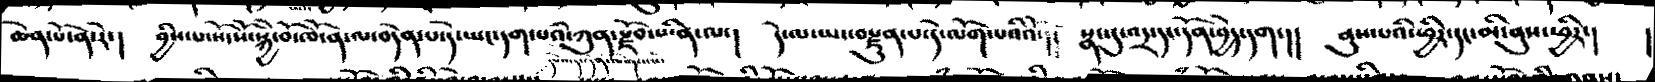ཆེན་པོ་ན་རེ་།    བྱིས་པ་སོ་སོ་སྐྱེ་བོ་ཁོ་ན་ལ་བདེན་པ་དེ་ཡང་དག་པའི་ཀུན་རྫོབ་ཡིན་ལ་།  དེ་ལ་ཡང་བརྫུན་པ་དེ་ལོག་པའིའོ་།།    སྣང་དུ་འདྲ་དང་དོན་བྱེད་དག་།   ནུས་པའི་ཕྱིར་དང་མི་ནུས་ཕྱིར་།     །
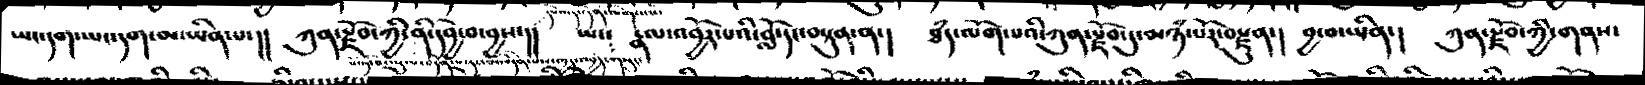ཡང་དག་ཡང་དག་མ་ཡིན་པ་།།  ཀུན་རྫོབ་ཀྱི་ནི་དབྱེ་བ་བྱས་།།    ཡང༴    རྣལ་འབྱོར་པའི་བློ་དང་བསྟུན་ན་།   ཐཾད་ལོག་པའི་ཀུན་རྗོབ་དུ་མཉཾ་པོར་བརྫུན་།   བྱ་བ་ཡིན་།   ཀུན་རྫོབ་ཀྱི་གནས་
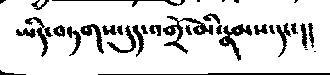ཡིད་བཏགས་དུད་འགྲོ་མི་རྣམས་དང་།།
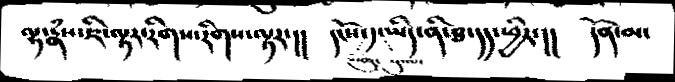ལྷ་རྣཾས་ཇི་ལྟར་རིགས་རིགས་ལྟར་།།  དངོས་༡་ཡིད་ནི་ཐ་དད་ཕྱིར་།།   དོན་མ་
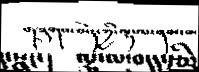དུ་སྣང་།   ལྷ་ལ་བདུད་རྩིར
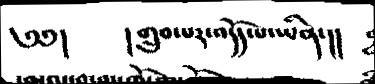༄༅།     །གྲུབ་པར་འདོད་པ་ཡིན་།།
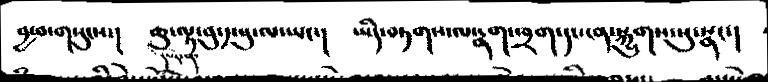བྱ་བ་གསུངས་།  ཆུ་ལྟ་བུ་༡་སུ་ལ་ཡང་།   ཡིད་བཏགས་ལ་རྣག་ཁྲག་དང་ངན་སྐྱུགས་སུ་སྣང་།
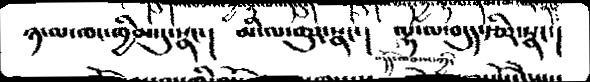ཉ་ལ་ཁང་ཁྱིམ་དུ་སྣང་།   མི་ལ་ཆུར་སྣང་།   ལྷ་ལ་བདུད་རྩིར་སྣང་།
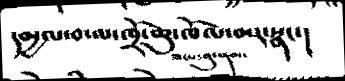དམྱལ་བ་ལ་ཁྲོ་ཆུ་ཁོལ་མར་སྣང་།
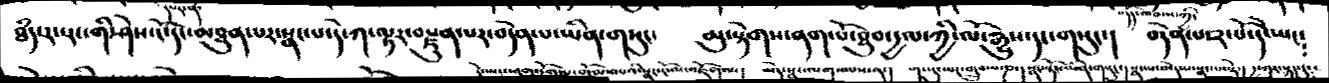ཐཾད་རང་རང་གི་ཤེས་ངོ་དང་མཐུན་པར་སྣང་པ་དེ་ཀ་ལྟར་བརྫུན་པར་བདེན་པ་ཡིན་གསུང་   མུ་སྟེགས་ནག་པོ་ཐུབ་དྱལ་ཀྱི་ལོ་རྒྱུས་དང་གསུང་།   བདེན་པ་༢་པོ་དེ་ཡང༴
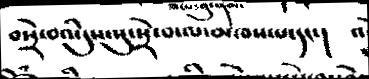བསྲེ་བའི་དུས་སུ་སྲེ་བ་ལ་མཁས་པ་དང་།    འ
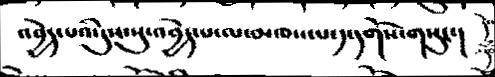འབྱེད་པའི་དུས་སུ་འབྱེད་པ་ལ་མཁས་པ་༡་དགོས་གསུང་།
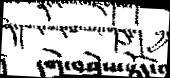།   དགེ་བཤེས་སྟོད་པ
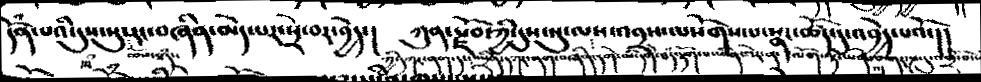དོན་པའི་དུས་སུ་རང་བཞིན་མེད་པར་སྲེ་བར་བྱེད་།     ཀུན་རྫོབ་ཀྱི་དུས་སུ་ལས་འབྲས་ལསོགས་པ་སྣང་ཚོད་དུ་འབྱེད་པའོ་།།
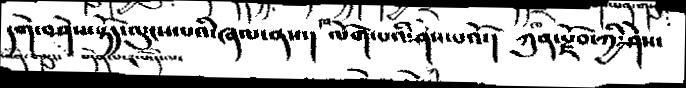དགེ་བཤེས་སྟོད་ལུངས་པའི་ཞལ་ནས་།   ལོག་པའི་ཤེས་པའོ་།   ཀུན་རྫོབ་ཀྱི་ཤེས་
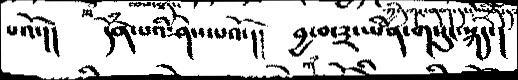པའོ་།།   དོཾན་པའི་ཤེས་པའོ་།།  བྱ་བ་༣་ཡིན་གསུང་སྐད་།
